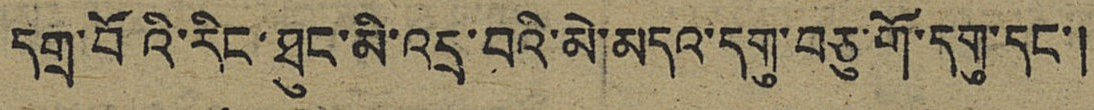དགྲ་བོའི་རིང་ཐུང་མི་འདྲ་བའི་མེ་མདའ་དགུ་བཅུ་གོ་དགུ་དང་།
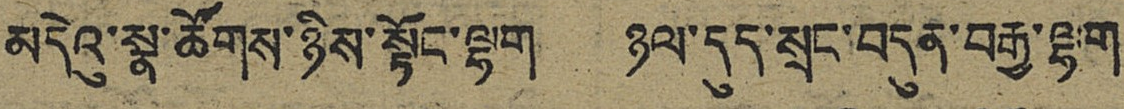མདེའུ་སྣ་ཚོགས་ཉིས་སྟོང་ལྷག ཉལ་དུད་སྲང་བདུན་བརྒྱ་ལྷག
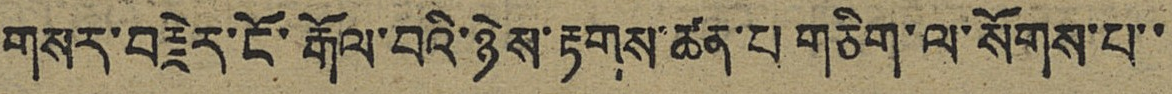གསར་བརྗེར་ངོ་རྒོལ་བའི་ཉེས་རྟགས་ཚན་པ་གཅིག་ལ་སོགས་པ་་
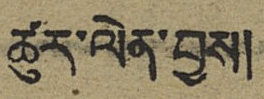ཚུར་ལེན་བྱས།
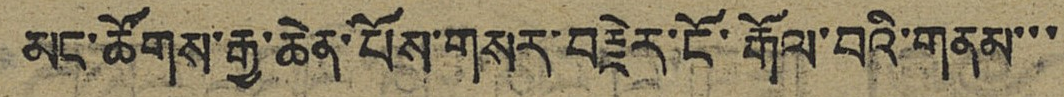མང་ཚོགས་རྒྱ་ཆེན་པོས་གསར་བརྗེར་ངོ་རྒོལ་བའི་གནམ་་་
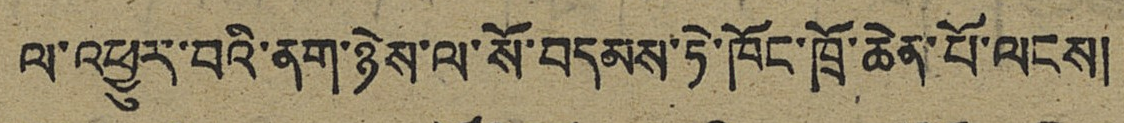ལ་འཕྱུར་བའི་ནག་ཉེས་ལ་སོ་བདམས་ཏེ་ཁོང་ཁྲོ་ཆེན་པོ་ལངས།
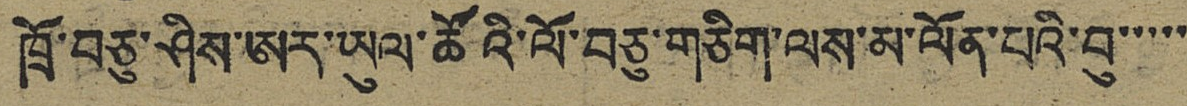ཁྲོ་བཅུ་ཤིས་ཨར་ཡུལ་ཚོའི་ལོ་བཅུ་གཅིག་ལས་མ་ལོན་པའི་བུ་་་་་
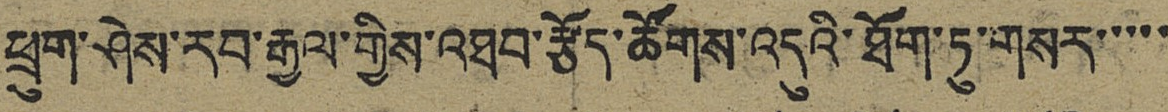ཕྲུག་ཤེས་རབ་རྒྱལ་གྱིས་འཐབ་རྩོད་ཚོགས་འདུའི་ཐོག་ཏུ་གསར་་་་་
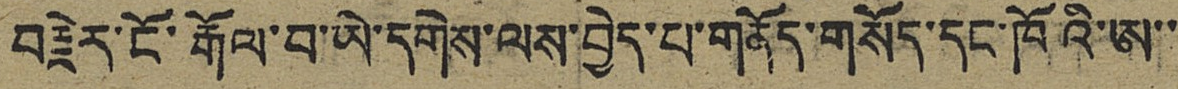བརྗེར་ངོ་རྒོལ་བ་ཡེ་དགེས་ལས་བྱེད་པ་གནོད་གསོད་དང་ཁོའི་ཨ་་
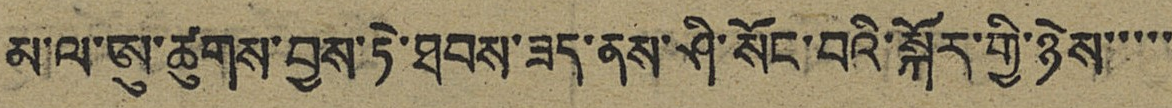མ་ལ་ཨུ་ཚུགས་བྱས་ཏེ་ཐབས་ཟད་ནས་ཤི་སོང་བའི་སྐོར་གྱི་ཉེས་་་་་
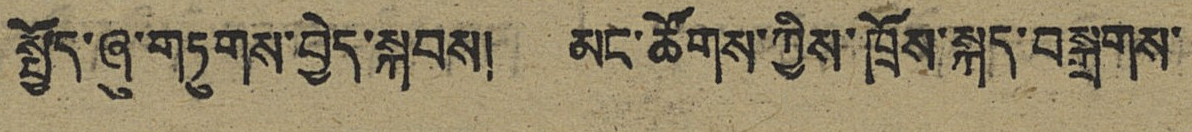སྤྱོད་ཞུ་གཏུགས་བྱེད་སྐབས། མང་ཚོགས་ཀྱིས་ཁྲོས་སྐད་བསྒྲགས་
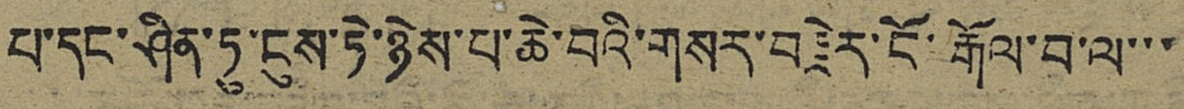པ་དང་ཤིན་ཏུ་ངུས་ཏེ་ཉེས་པ་ཆེ་བའི་གསར་བརྗེར་ངོ་རྒོལ་བ་ལ་་་
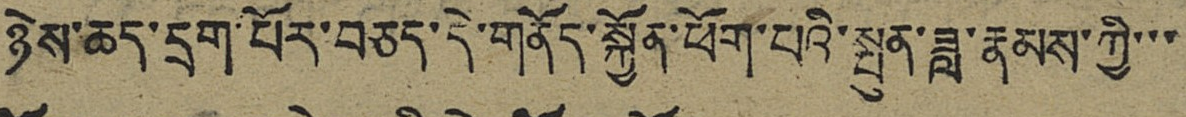ཉེས་ཆད་དྲག་པོར་བཅད་དེ་གནོད་སྐྱོན་ཕོག་པའི་སྤུན་ཟླ་རྣམས་ཀྱི་་་
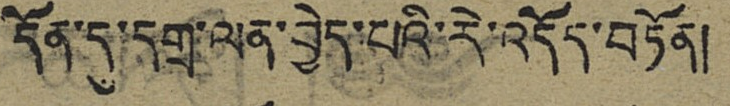དོན་དུ་དགྲ་ལན་བྱེད་པའི་རེ་འདོད་བཏོན།
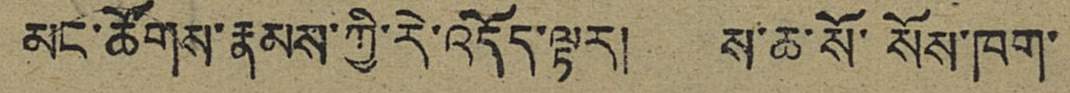མང་ཚོགས་རྣམས་ཀྱི་རེ་འདོད་ལྟར། ས་ཆ་སོ་སོས་ཁག་
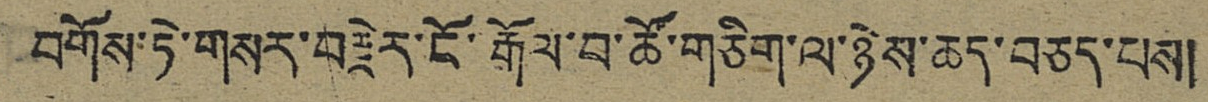བགོས་ཏེ་གསར་བརྗེར་ངོ་རྒོལ་བ་ཚོ་གཅིག་ལ་ཉེས་ཆད་བཅད་པས།
